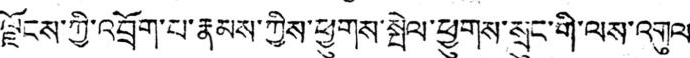ལྗོངས་ཀྱི་འབྲོག་པ་རྣམས་ཀྱིས་ཕྱུགས་སྤེལ་ཕྱུགས་སྲུང་གི་ལས་འགུལ
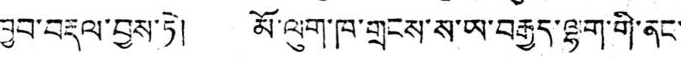ཁྱབ་བརྡལ་བྱས་ཏེ། མོ་ལུག་ཁ་གྲངས་ས་ཡ་བརྒྱད་ལྷག་གི་ནང་
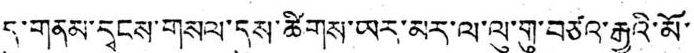དུ་གནས་དྭངས་གསལ་དུས་ཚིགས་ཡར་མར་ལ་ལུ་གུ་བཙའ་རྒྱུའི་མོ་
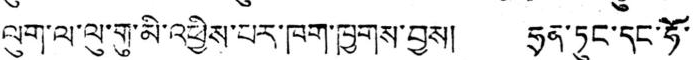ལུག་ལ་ལུ་གུ་མི་འཕྱིས་པར་ཁག་ཁྱགས་བྱས། ཧྲན་ཏུང་དང་ཧོ་
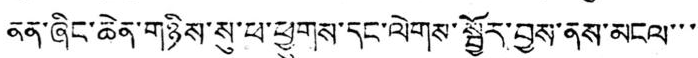ནན་ཞིང་ཆེན་གཉིས་སུ་ཕ་ཕྱུགས་དང་ལེགས་སྦྱོར་བྱས་ནས་མངལ་་་
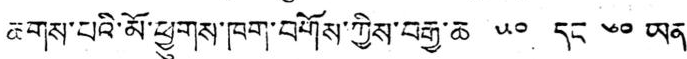ཆགས་པའི་མོ་ཕྱུགས་ཁག་བགོས་ཀྱིས་བརྒྱ་ཆ ༥༠ དང ༦༠ ཡན་
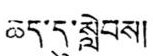ཆད་དུ་སླེབས།
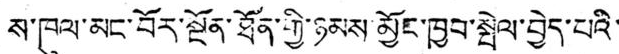ས་ཁུལ་མང་བོར་སྔོན་ཐོན་གྱི་ཉམས་མྱོང་ཁྱབ་སྤེལ་བྱེད་པའི་
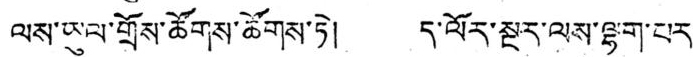ལས་ཡུལ་གྲོས་ཚོགས་ཚོགས་ཏེ། ད་ལོར་སྔར་ལས་ལྷག་པར་
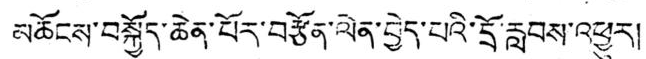མཆོངས་བསྐྱོད་ཆེན་པོར་བརྩོན་ལེན་བྱེད་པའི་དྲོ་རླབས་འཕྱུར།
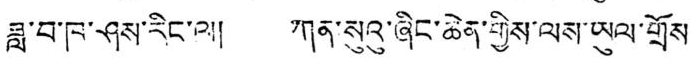ཟླ་བ་ཁ་ཤས་རིང་ལ། ཀན་སུའུ་ཞིང་ཆེན་གྱིས་ལས་ཡུལ་གྲོས་
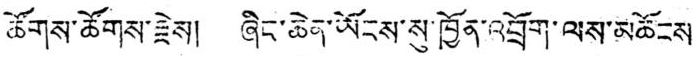ཚོགས་ཚོགས་རྗེས། ཞིང་ཆེན་ཡོངས་སུ་ཁྱོན་འབྲོག་ལས་མཆོངས་
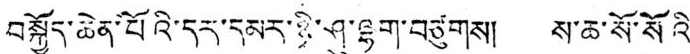བསྐྱོད་ཆེན་པོའི་དར་དམར་ཉི་ཤུ་ལྷག་བཙུགས། ས་ཆ་སོ་སོའི་
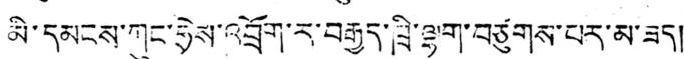མི་དམངས་ཀུང་ཧྲེས་འབྲོག་ར་བརྒྱད་ཁྲི་ལྷག་བཙུགས་པར་མ་ཟད།
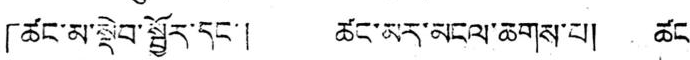「ཚང་མ་སྡེབ་སྦྱོར་དང་། ཚང་མར་མངལ་ཆགས་པ། ཚང་
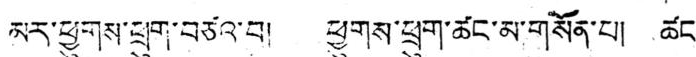མར་ཕྱུགས་ཕྲུག་བཙའ་བ། ཕྱུགས་ཕྲུག་ཚང་མ་གསོན་པ། ཚང་
